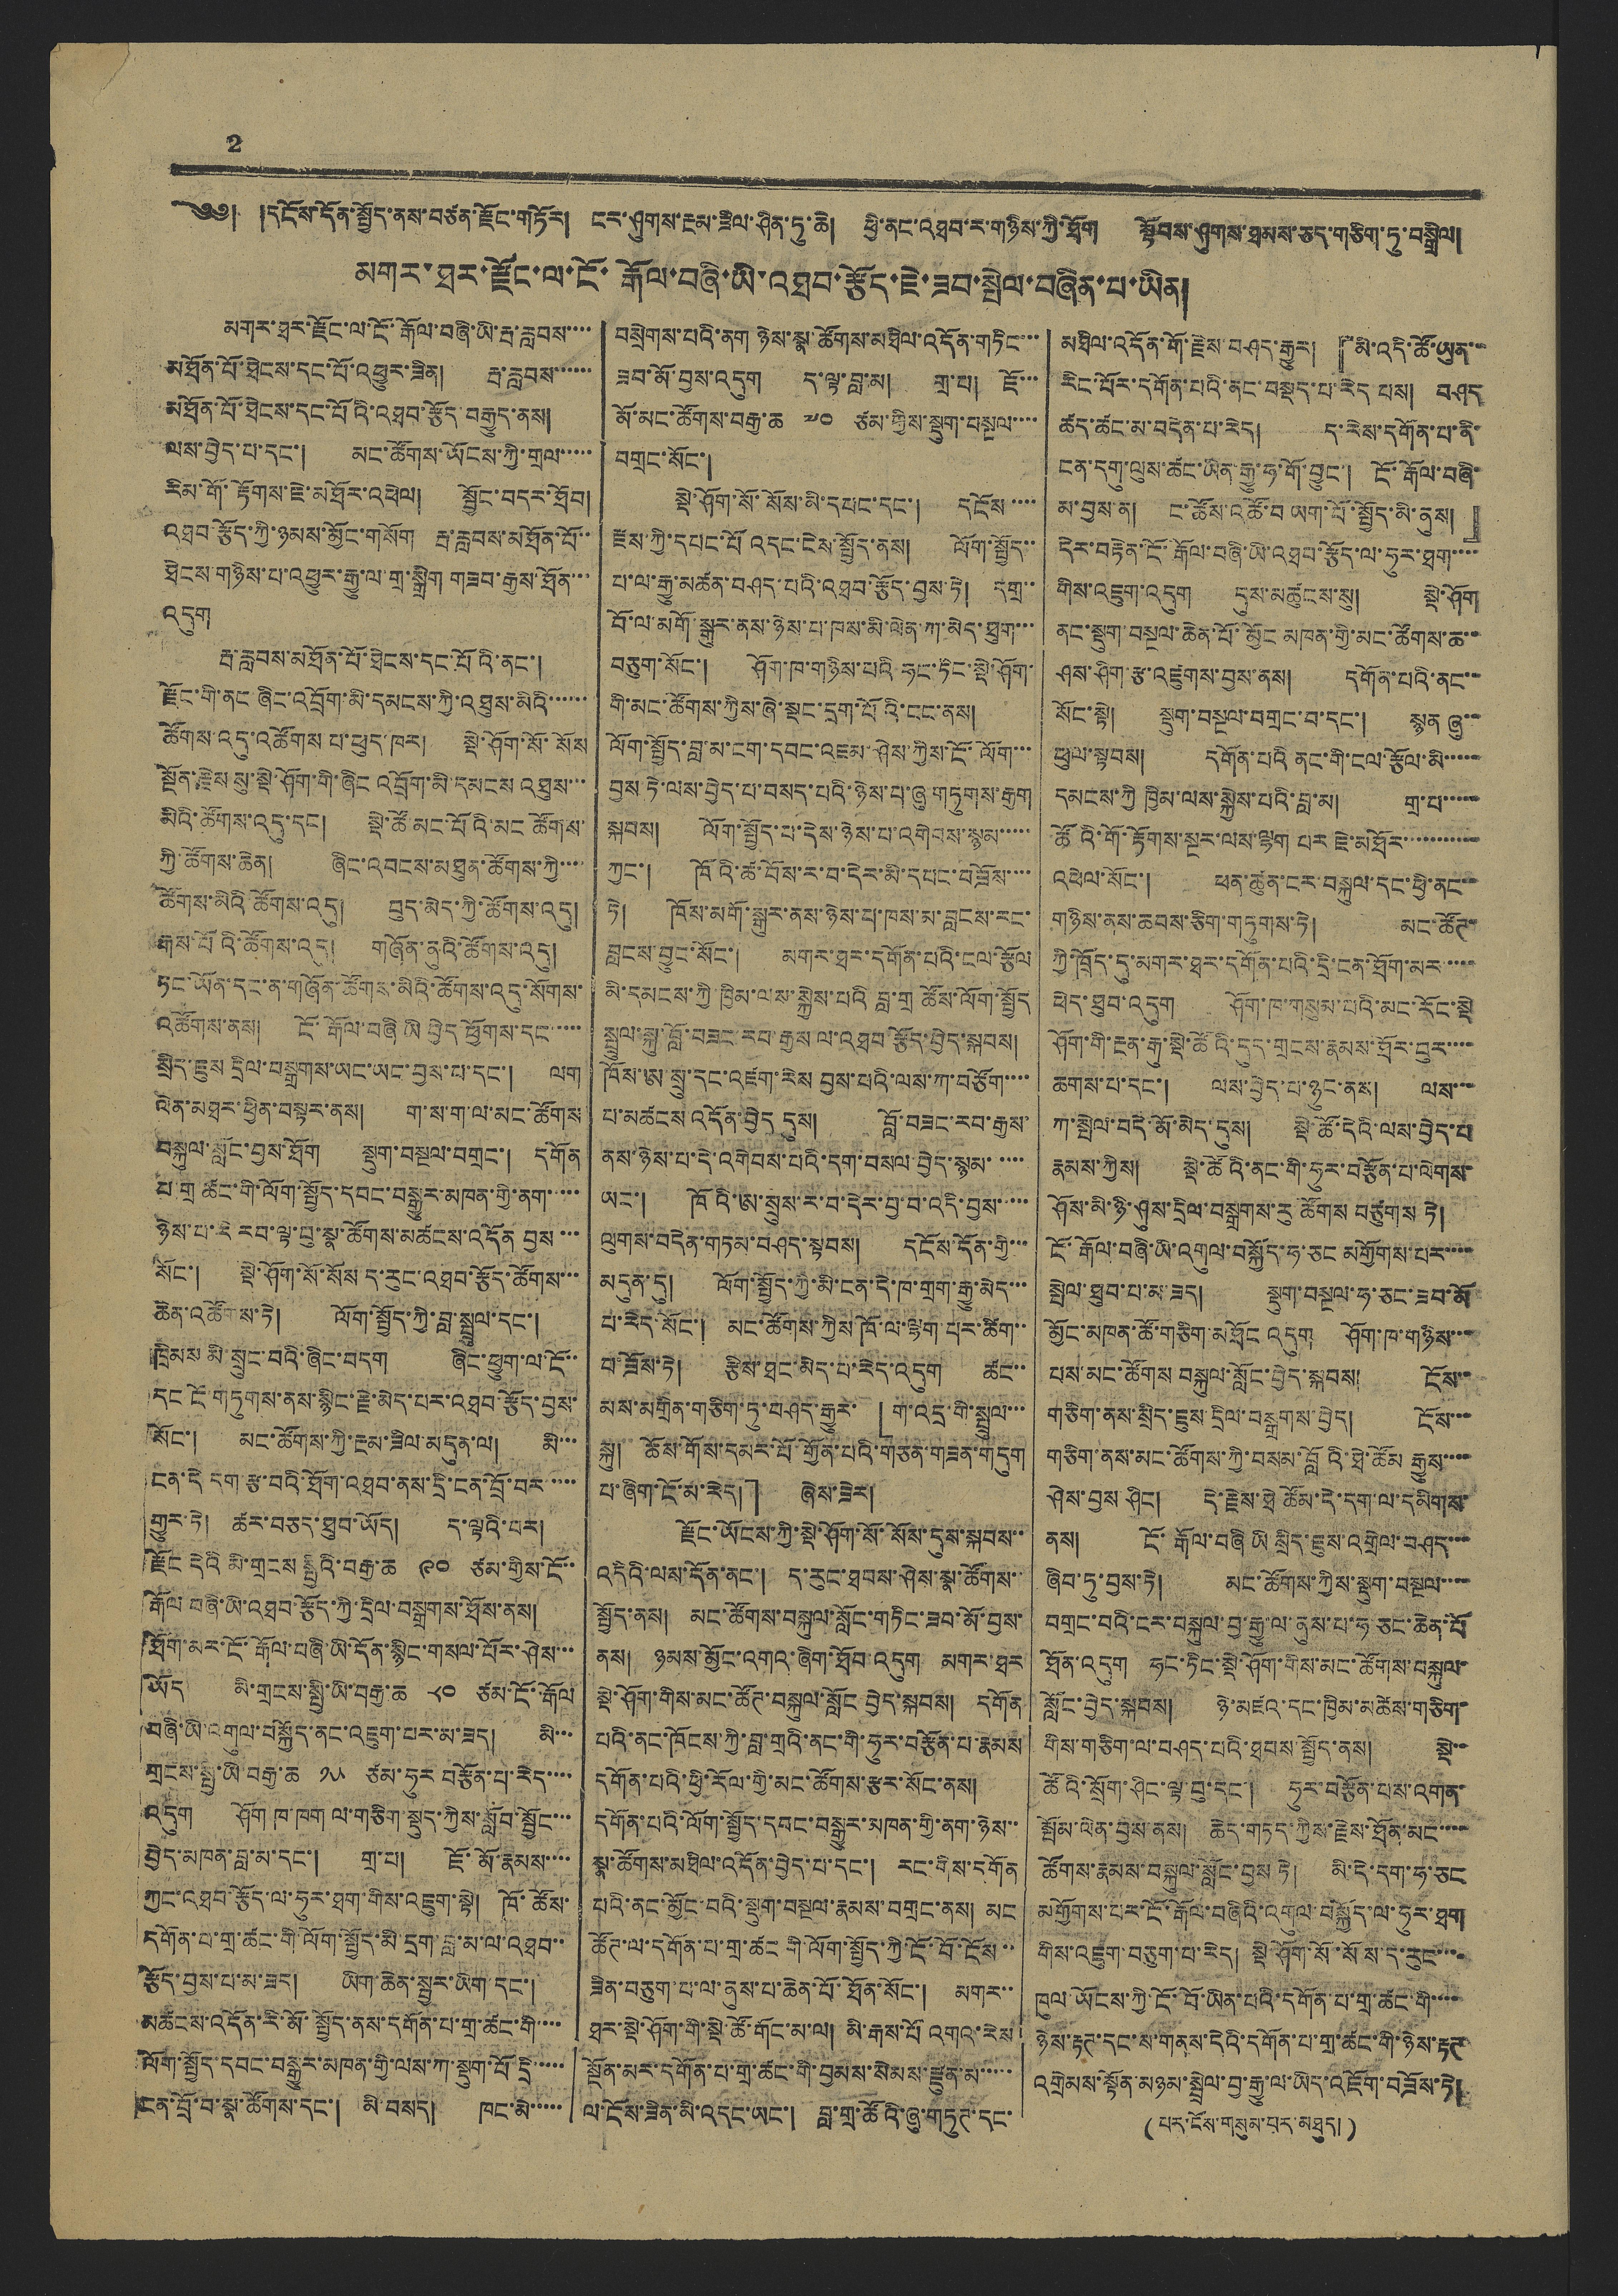2
༄༅། །དངོས་དོན་སྤྱོད་ནས་བཙན་རྫོང་གཏོར། ངར་ཤུགས་རྔམ་རིལ་ཤིན་ཏུ་ཆེ། ཕྱི་ནང་འཐབ་ར་གཉིས་ཀྱི་ཐོག སྟོབས་ཤུགས་ཐམས་ཅད་གཅིག་ཏུ་བསྒྲིལ།
མགར་ཐར་རྫོང་ལ་ངོ་རྒོལ་བཞི་ཡི་འཐབ་རྩོད་ཇེ་ཟབ་སྤེལ་བཞིན་པ་ཡིན།
མགར་ཐར་རྫོང་ལ་ངོ་རྒོལ་བཞི་མི་རྦ་རླབས་་་
མཐོན་པོ་ཐེངས་དང་པོ་འཕྱུར་ཟིན། རྦ་རླབས་་་་་
མཐོན་པོ་ཐེངས་དང་པོའི་འཐབ་རྩོད་བརྒྱུད་ནས།
ལས་བྱེད་པ་དང་། མང་ཚོགས་ཡོངས་ཀྱི་གྲལ་་་་་
རིམ་གོ་རྟོགས་ཇེ་མཐོར་འཕེལ། སྦྱོང་བདར་ཐོབ།
འཐབ་རྩོད་ཀྱི་ཉམས་མྱོང་གསོག རྦ་རླབས་མཐོན་པོ་་
ཐེངས་གཉིས་པ་འཕྱུར་རྒྱུལ་གྲ་སྒྲིག གཟབ་རྒྱས་ཐོན་་་
འདུག
རྦ་རླབས་མཐོན་པོ་ཐེངས་དང་པོའི་ནང་།
རྫོང་གི་ནང་ཞིང་འབྲོག་མི་དམངས་ཀྱི་འཐུས་མིའི་་་་་་
ཚོགས་འདུ་འཚོགས པ་ཕུད་ཁར། སྡེ་ཤོག་སོ་སོས
སྔོན་རྗེས སུ་སྡེ་ཤོག་གི་ཞིང འབྲོག་མི་དམངས འཐུས་་་
མིའི་ཚོགས་འདུ་དང་། སྡེ་ཚོ་མང་པོའི་མང ཚོགས
ཀྱི་ཚོགས་ཆེན། ཞིང་འབངས་མཐུན་ཚོགས་ཀྱི་་་་
ཚོགས་མིའི་ཚོགས་འདུ། བུད་མེད་ཀྱི་ཚོགས་འདུ།
རྒས་པོའི་ཚོགས་འདུ། གཞོན་ནུའི་ཚོགས་འདུ།
ཏང་ཡོན་དང་ན་གཞོན་ཚོགས་མིའི་ཚོགས་འདུ་སོགས་
འཚོགས་ནས། ངོ་རྒོལ་བཞི ཡི བྱེད ཕྱོགས་དང་་་་
སྲིད་ཇུས དྲིལ་བསྒྲགས་ཡང་ཡང་བྱས་པ་དང་། ལག
ལེན་མཐར་ཕྱིན་བསྟར་ནས། ག་ས་ག་ལ་མང་ཚོགས
བསྐུལ་སླང་བྱས་ཐོག སྡུག་བསྔལ་བགྲང་། དགོན
པ་གྲ ཚང་གི་ལོག་སྤྱོད་དབང་བསྒྱུར་མཁན་གྱི་ནག་་་་
ཉེས་པ་རེ རབ་ལྟ་བུ་སྣ་ཚོགས་མཚངས་འདོན བྱས་་་
སོང་། སྡེ་ཤོག་སོ་སོས་ད་རུང་འཐབ་རྩོད་ཚོགས་་
ཆེན་འཚོགས་ཏེ། ལོག་སྤྱོད་ཀྱི་ཟླ་སྤྲུལ་དང་།
ཁྲིམས་མི་སྲུང་བའི་ཞིང་བདག ཞིང་ཕྱུག་ལ་ངོ་་
དང ངོ་གཏུགས་ནས་སྙིང་རྗེ་མེད་པར་འཐབ་རྩོད་བྱས་
སོང་། མང་ཚོགས་ཀྱི་རྔམ་ཟིལ་མདུན་ལ། མི་་་
ངན་དེ དག་རྩ་བའི་ཐོག་འཐབ་ནས་དྲི་ངན་བྲོ་བར་་་་་
གྱུར་ཏེ། ཚར་བཅད་ཐུབ་ཡོད། ད་ལྟའི་བར།
རྫོང་དེའི མི་གྲངས སྤྱིའི་བརྒྱ་ཆ ༩༠ ཙམ་གྱིས་ངོ་་
རྒོལ་བཞི་ཡི་འཐབ་རྩོད་ཀྱི་དྲིལ་བསྒྲགས་ཐོས་ནས།
ཐོག་མར་ངོ་རྒོལ་བཞི་ཡི་དོན་སྙིང་གསལ་པོར་ཤེས་་་
ཡོད། མི་གྲངས་སྤྱི་ཡི་བརྒྱ་ཆ ༨༠ ཙམ་ངོ་རྒོལ
བཞི་ཡི་འགུལ་བསྐྱོད་ནང་འཇུག་པར་མ་ཟད། མི་་་
གྲངས་སྤྱི་ཡི་བརྒྱ་ཆ ༡༥ ཙམ་ཧུར་བརྩོན་པ་རེད་་་་
འདུག ཤོག་ཁ་ཁག ལ་གཅིག་སྡུད་ཀྱིས་སློབ་སྦྱོང་་་
བྱེད་མཁན་བླ་མ་དང་། གྲ་པ། ཇོ་མོ་རྣམས་་་་
ཀྱང་འཐབ་རྩོད་ལ་ཧུར་ཐག་གིས་འཇུག་སྟེ། ཁོ་ཚོས་
དགོན་པ་གྲྭ་ཚང་གི་ལོག་སྤྱོད་མི་དྲག་བླ་མ་ལ་འཐབ་་
རྩོད་བྱས་པ་མ་ཟད། ཡིག་ཆེན་སྦྱར་ཡིག་དང་།
མཚོངས་འདོན་རི་མོ་སྤྱོད་ནས་དགོན་པ་གྲ་ཚང་གི་་་་
ལོག་སྤྱོད་དབང་བསྒྱུར་མཁན་གྱི་ལས་ཀ་སྡུག་པོ་དྲི་་་་་
ངན་བྲོ་བ་སྣ་ཚོགས་དང་། མི་བསད། ཁང་མི་་་་་
བསྲེགས་པའི་ནག ཉེས་སྣ་ཚོགས་མཐིལ་འདོན་གཏིང་་་
ཟབ་མོ་བྱས་འདུག ད་ལྟ་བླ་མ། གྲ་པ། ཇོ་་་
མོ་མང་ཚོགས་བརྒྱ་ཆ ༧༠ ཙམ་ཀྱིས་སྡུག་བསྔལ་་་་
བགྲང་སོང་།
སྡེ་ཤོག་སོ་སོས་མི་དཔང་དང་། དངོས་་་་
རྫས་ཀྱི་དཔང་པོ འདང་ངེས་སྤྱོད་ནས། ལོག་སྤྱོད་་
པ་ལ་རྒྱུ་མཚན་བཤད་པའི་འཐབ་རྩོད་བྱས་ཏེ། དགྲ་་
བོ་ལ་མགོ་སྒྲུར་ནས་ཉེས་པ་ཁས་མི་ལེན་ཀ་མེད་ཐུག་་་
བཅུག་སོང་། ཤོག་ཁ་གཉིས་པའི་ཧང་ཏིང་སྡེ་ཤོག་
གི་མང་ཚོགས་ཀྱིས་ཞེ་སྡང་དྲག་པོའི་ངང་ནས།
ལོག་སྤྱོད་བླ་མ་ངག་དབང་འཇམ་ཤེས་ཀྱིས་ངོ་ལོག་་་
བྱས་ཏེ་ལས་བྱེད་པ་བསད་པའི་ཉེས་པ་ཞུ་གཏུགས་རྒྱག
སྐབས། ལོག་སྤྱོད་པ་དེས་ཉེས་པ་འགེབས་སྙམ་་་་་
ཀྱང་། ཁོའི་ཚ་བོས་ར་བ་དེར་མི་དཔང་བཟོས་་་་་
ཏེ། ཁོས་མགོ་སྒུར་ནས་ཉེས་པ་ཁས་མ་བླངས་རང་
བླངས་བྱུང་སོང་། མགར་ཐར་དགོན་པའི་ངལ་རྩོལ
མི་དམངས་ཀྱི་ཁྱིམ་ལས་སྐྱེས་པའི བླ་གྲ ཚོས་ལོག་སྤྱོད
སྤྲུལ་སྐུ་བློ་བཟང་རབ་རྒྱས ལ་འཐབ་རྩོད་བྱེད་སྐབས།
ཁོས་ཨ་སྲུ་དང་འཛག་རེས བྱས་པའི་ལས་ཀ་བཙོག་་་་
པ་མཚངས་འདོན་བྱེད དུས། བློ་བཟང་རབ་རྒྱས་
ནས་ཉེས་པ་དེ་འགེབས་པའི་དག་བསལ་བྱེད་སྙམ་་་་་
ཡང་། ཁོའི་ཨ་སྲས་རི་བ་དེར་བྱ་བ་འདི་བས་་་་་
ལུགས་བདེན་གཏམ་བཤད་སྟབས། དངོས་དོན་གྱི་་་
མདུན་དུ། ལོག་སྤྱོད་ཀྱི་མི་ངན་དེ་ཁ་གྲག་རྒྱུ་མེད་་་
པ་རེད་སོང་། མང་ཚོགས་ཀྱིས ཁོ་ལ་ལྷག་པར་ཚིག་་
བ་ཟོས་ཏེ། རྩིས་ཐང་མེད་པ་རེད་འདུག ཚང་་
མས་མགྲིན་གཅིག་ཏུ་བཤད་རྒྱུར་ 「ག་འདྲ་གྲི་སྤྲུལ་་
སྐུ། ཆོས་གོས་དམར་པོ་གྱོན་པའི་གཙན་གཟན་གདུག
པ་ཞིག་ངོ་མ་རེད།」 ཞེས་ཟེར།
རྫོང་ཡོངས་ཀྱི་སྡེ་ཤོག་སོ་སོས་དུས་སྐབས་་
འདིའི་ལས་དོན་ནང་། ད་རུང་ཐབས་ཤེས་སྣ་ཚོགས་་
སྤྱོད་ནས། མང་ཚོགས་བསྐུལ་སློང་གཏིང་ཟབ་མོ་བྱས་
ནས། ཉམས་མྱོང་འགའ་ཞིག་ཐོབ་འདུག མགར་ཐར
སྡེ་ཤོག་གིས་མང་ཚོཊ་བསྐུལ་སློང བྱེད་སྐབས། དགོན
པའི་ནང་ཁོངས་ཀྱི་བླ་གྲའི་ནང་གི་ཧུར་བརྩོན་པ་རྣམས
དགོན་པའི་ཕྱི་རོལ་གྱི་མང་ཚོགས་རྩར་སོང་ནས།
དགོན་པའི་ལོག་སྤྱོད་དབང་བསྒྱུར་མཁན་གྱི་ནག་ཉེས་་
སྣ་ཚོགས་མཐིལ་འདོན་བྱེད་པ་དང་། རང་གིས་དགོན
པའི་ནང་མྱོང་བའི་སྡུག་བསྔལ་རྣམས་བགྲང་ནས། མང
ཚོཊ་ལ་དགོན་པ་གྲ་ཚང གི་ལོག་སྤྱོད་ཀྱི་ངོ་བོ་ངོས་་
ཟིན་བཅུག་པ་ལ་ནུས་པ་ཆེན་པོ་ཐོན་སོང་། མགར་་
ཐར་སྡེ་ཤོག་གི་སྡེ་ཚོ་གོང་མ་ལ། མི་རྒས་པོ འགའ་རེས
སྔོན་མར་དགོན་པ་གྲོ་ཚང་གི་བྱམས་སེམས་རྫོན་མ་་་་་
ལ་ངོས་ཟིན་མི་འདང་ཡང་། བླ་གྲ་ཚོའི་ཞུ་གཏུཊ་དང་
མཐིལ་འདོན་གོ་རྗེས་བཤད་རྒྱུར། 『མི་འདི་ཚོ་ཡུན་་
རིང་པོར་དགོན་པའི་ནང་བསྡད་པ་རེད པས། བཤད
ཚད་ཚང་མ་བདེན་པ་རེད། ད་རེས་དགོན་པ་ནི་
ངན་དགུ་ལུས་ཚང་ཡིན་རྒྱུ་ཧ་གོ་བྱུང་། ངོ་རྒོལ་བཞི་
མ་བྱས་ན། ང་ཚོས་འཚོ་བ ཡག་པོ་སྤྱོད་མི་ནུས།』
དེར་བརྟེན་ངོ་རྒོལ་བཞི་ཡི་འཐབ་རྩོད་ལ་ཧུར་ཐག་་་་
གིས་འཇུག་འདུག དུས་མཚུངས་སུ། སྡེ་ཤོག
ནང་སྡུག་བསྔལ་ཆེན་པོ་མྱོང་མཁན་གྱི་མང་ཚོགས་ཆ་་
ཤས་ཤིག་རྩ་འཛུགས་བྱས་ནས། དགོན་པའི་ནང་་
སོང་སྟེ། སྡུག་བསྔལ་བགྲང་བ་དང་། སྙན་ཞུ་་
ཕུལ་སྟབས། དགོན་པའི ནང་གི་ངལ་རྩོལ་མི་་་་་
དམངས་ཀྱི ཁྱིམ་ལས་སྐྱེས་པའི་བླ་མ། གྲ་པ་་་་
ཚོའི་གོ་རྟོགས་སྔར་ལས་ལྷག པར་ཇེ་མཐོར་་་་་་་་་་
འཕེལ་སོང་། ཕན་ཚུན་ངར་བསྐུལ་དང་ཕྱི་ནང་
གཉིས་ནས་ཆབས་ཅིག་གཏུགས་ཏེ། མང་ཚོཊ་
ཀྱི་ཁྲོད་དུ་མགར་ཐར་དགོན་པའི་དྲི་ངན་ཐོག་མར་་་་་
ཕེད་ཐུབ་འདུག ཤོག་ཁ་གསུམ་པའི་མང་རོང་སྡེ
ཤོག་གི་རྔན་རྒྱ་སྡེ་ཚོའི་དུད་གྲངས་རྣམས་ཐོར་བུར་་་་
ཆགས་པ་དང་། ལས་བྱེད་པ་ཉུང་ནས། ལས་་་
ཀ་སྤེལ་བདེ་མོ་མེད་དུས། སྡེ་ཚོ་དེའི་ལས་བྱེད་པ་
རྣམས་ཀྱིས། སྡེ་ཚོའི་ནང་གི་ཧུར་བརྩོན་པ་ལེགས་
ཤོས་མི་ཉི་ཤུས་དྲིལ་བསྒྲགས་རུ་ཚོགས བཙུགས ཏེ།
ངོ་རྒོལ་བཞི་ཡི་འགུལ་བསྐྱོད་ཧ་ཅང མགྱོགས་པར་་་་
སྤེལ་ཐུབ་པ་མ་ཟད། སྡུག་བསྔལ་ཧ་ཅང་ཟབ་མོ
མྱོང་མཁན་ཚོ་གཅིག་མཐོང འདུག ཤོག་ཁ་གཉིས་་་
པས་མང་ཚོགས་བསྐུལ་སློང་བྱེད་སྐབས། ངོས་་
གཅིག་ནས་སྲིད་ཇུས་དྲིལ་བསྒྲགས་བྱེད། ངོས་་་
གཅིག་ནས་མང་ཚོགས་ཀྱི་བསམ་བློའི་ཐེ་མོམ རྒྱུས་་་་
ཤེས་བྱས་ཤིང། དེ་རྗེས་ཐེ ཚོམ་དེ་དག་ལ་དམིགས
ནས། ངོ་རྒོལ་བཞི་ཡི་སྲིད་ཇུས་འགྲེལ་བཤད་་་
ཞིབ་ཏུ་བྱས་ཏེ། མང་ཚོགས་ཀྱིས་སྡུག་བསྔལ་་་་
བགྲང་བའི་ངར་བསྐུལ་བྱ་རྒྱུ་ལ་ནུས་པ་ཧ་ཅང་ཆེན་པོ
ཐོན་འདུག ཧང་ཏིང་སྡེ་ཤོག་གིས་མང་ཚོགས་བསྐུལ་
སློང་བྱེད་སྐབས། ཉེ་མཛའ་དང་ཁྱིམ་མཚེས་གཅིག་
གིས་གཅིག་ལ་བཤད་པའི་ཐབས་སྤྱོད་ནས། སྡེ་་
ཚོའི་སྲོག་ཤིང་ལྟ་བུ་དང་། ཧུར་བརྩོན་པས་འགན་
སྤོམ་ལེན་བྱས་ནས། ཆེད་གཏད་ཀྱིས་རྗེས་ཐོན་མང་་་་
ཚོགས་རྣམས་བསྐུལ་སློང་བྱས་ཏེ། མི་དེ་དག་ཧ་ཅང
མགྱོགས་པར་ངོ་རྒོལ་བཞིའི་འགུལ་བསྐྱོད་ལ་ཧུར་ཐག
གིས་འཛུག་བཅུག་པ་རེད། སྡེ་ཤོག་སོ་སོས་ད་རུང་་་
ཁུལ་ཡོངས་ཀྱི་ངོ་བོ་ཡིན་པའི་དགོན་པ་གྲ་ཚང་གི་་་་
ཉེས་རྟཊ་དང་ས་གནས་དེའི་དགོན་པ་གྲ་ཚང་གི་ཉེས་རྟཊ
འགྲེམས་སྟོན་མཉམ་སྦྲེལ་བྱ་རྒྱུ་ལ་ཡིད་འཇོག་བཟོས་ཏེ།
(པར་ངོས་གསུམ་པར་མཐུད།)
